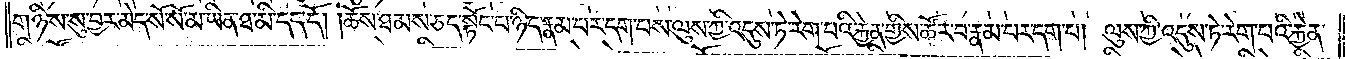གཉིས་སུ་བྱར་མེད་སོ་སོ་མ་ཡིན་ཐ་མི་དད་དོ། །ཆོས་ཐམས་ཅད་སྟོང་པ་ཉིད་རྣམ་པར་དག་པས་ལུས་ཀྱི་འདུས་ཏེ་རེག་པའི་རྐྱེན་གྱིས་ཚོར་བ་རྣམ་པར་དག་པ། ལུས་ཀྱི་འདུས་ཏེ་རེག་པའི་རྐྱེན་
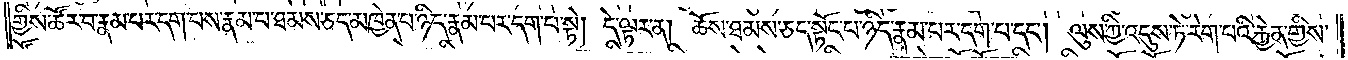གྱིས་ཚོར་བ་རྣམ་པར་དག་པས་རྣམ་པ་ཐམས་ཅད་མཁྱེན་པ་ཉིད་རྣམ་པར་དག་པ་སྟེ། དེ་ལྟར་ན། ཆོས་ཐམས་ཅད་སྟོང་པ་ཉིད་རྣམ་པར་དག་པ་དང༌། ལུས་ཀྱི་འདུས་ཏེ་རེག་པའི་རྐྱེན་གྱིས་
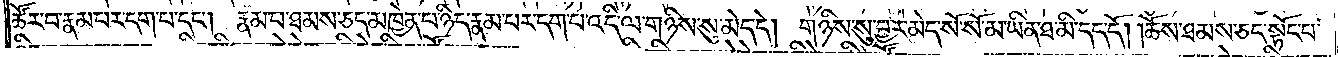ཚོར་བ་རྣམ་པར་དག་པ་དང༌། རྣམ་པ་ཐམས་ཅད་མཁྱེན་པ་ཉིད་རྣམ་པར་དག་པ་འདི་ལ་གཉིས་སུ་མེད་དེ། གཉིས་སུ་བྱར་མེད་སོ་སོ་མ་ཡིན་ཐ་མི་དད་དོ། །ཆོས་ཐམས་ཅད་སྟོང་པ་
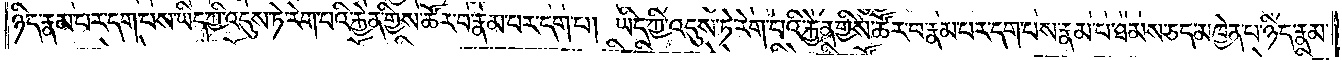ཉིད་རྣམ་པར་དག་པས་ཡིད་ཀྱི་འདུས་ཏེ་རེག་པའི་རྐྱེན་གྱིས་ཚོར་བ་རྣམ་པར་དག་པ། ཡིད་ཀྱི་འདུས་ཏེ་རེག་པའི་རྐྱེན་གྱིས་ཚོར་བ་རྣམ་པར་དག་པས་རྣམ་པ་ཐམས་ཅད་མཁྱེན་པ་ཉིད་རྣམ་
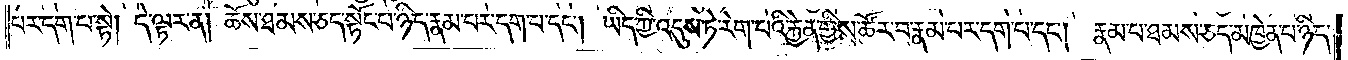པར་དག་པ་སྟེ། དེ་ལྟར་ན། ཆོས་ཐམས་ཅད་སྟོང་པ་ཉིད་རྣམ་པར་དག་པ་དང༌། ཡིད་ཀྱི་འདུས་ཏེ་རེག་པའི་རྐྱེན་གྱིས་ཚོར་བ་རྣམ་པར་དག་པ་དང༌། རྣམ་པ་ཐམས་ཅད་མཁྱེན་པ་ཉིད་
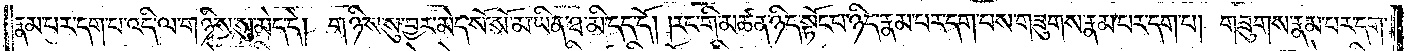རྣམ་པར་དག་པ་འདི་ལ་གཉིས་སུ་མེད་དེ། གཉིས་སུ་བྱར་མེད་སོ་སོ་མ་ཡིན་ཐ་མི་དད་དོ། །རང་གི་མཚན་ཉིད་སྟོང་པ་ཉིད་རྣམ་པར་དག་པས་གཟུགས་རྣམ་པར་དག་པ། གཟུགས་རྣམ་པར་དག་
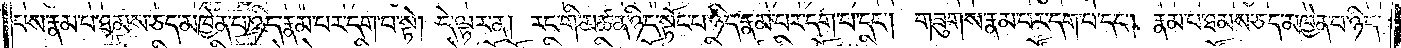པས་རྣམ་པ་ཐམས་ཅད་མཁྱེན་པ་ཉིད་རྣམ་པར་དག་པ་སྟེ། དེ་ལྟར་ན། རང་གི་མཚན་ཉིད་སྟོང་པ་ཉིད་རྣམ་པར་དག་པ་དང༌། གཟུགས་རྣམ་པར་དག་པ་དང༌། རྣམ་པ་ཐམས་ཅད་མཁྱེན་པ་ཉིད་
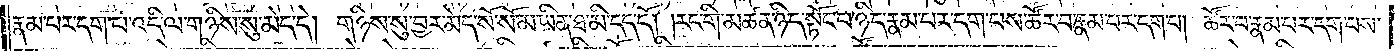རྣམ་པར་དག་པ་འདི་ལ་གཉིས་སུ་མེད་དེ། གཉིས་སུ་བྱར་མེད་སོ་སོ་མ་ཡིན་ཐ་མི་དད་དོ། །རང་གི་མཚན་ཉིད་སྟོང་པ་ཉིད་རྣམ་པར་དག་པས་ཚོར་བ་རྣམ་པར་དག་པ། ཚོར་བ་རྣམ་པར་དག་པས་
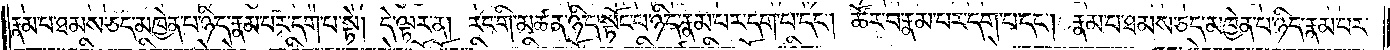རྣམ་པ་ཐམས་ཅད་མཁྱེན་པ་ཉིད་རྣམ་པར་དག་པ་སྟེ། དེ་ལྟར་ན། རང་གི་མཚན་ཉིད་སྟོང་པ་ཉིད་རྣམ་པར་དག་པ་དང༌། ཚོར་བ་རྣམ་པར་དག་པ་དང༌། རྣམ་པ་ཐམས་ཅད་མཁྱེན་པ་ཉིད་རྣམ་པར་
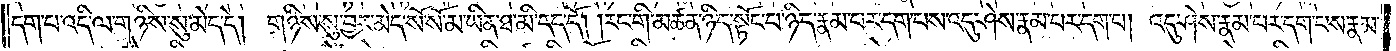དག་པ་འདི་ལ་གཉིས་སུ་མེད་དེ། གཉིས་སུ་བྱར་མེད་སོ་སོ་མ་ཡིན་ཐ་མི་དད་དོ། །རང་གི་མཚན་ཉིད་སྟོང་པ་ཉིད་རྣམ་པར་དག་པས་འདུ་ཤེས་རྣམ་པར་དག་པ། འདུ་ཤེས་རྣམ་པར་དག་པས་རྣམ་
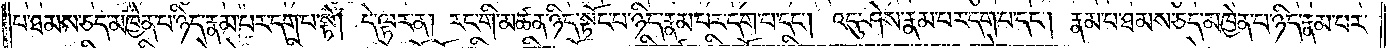པ་ཐམས་ཅད་མཁྱེན་པ་ཉིད་རྣམ་པར་དག་པ་སྟེ། དེ་ལྟར་ན། རང་གི་མཚན་ཉིད་སྟོང་པ་ཉིད་རྣམ་པར་དག་པ་དང༌། འདུ་ཤེས་རྣམ་པར་དག་པ་དང༌། རྣམ་པ་ཐམས་ཅད་མཁྱེན་པ་ཉིད་རྣམ་པར་
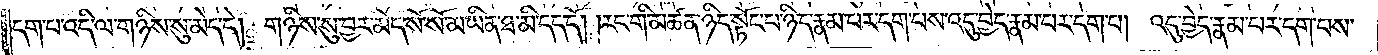དག་པ་འདི་ལ་གཉིས་སུ་མེད་དེ། གཉིས་སུ་བྱར་མེད་སོ་སོ་མ་ཡིན་ཐ་མི་དད་དོ། །རང་གི་མཚན་ཉིད་སྟོང་པ་ཉིད་རྣམ་པར་དག་པས་འདུ་བྱེད་རྣམ་པར་དག་པ། འདུ་བྱེད་རྣམ་པར་དག་པས་
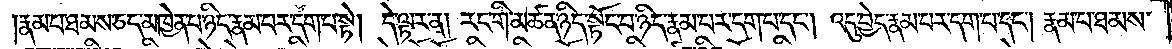རྣམ་པ་ཐམས་ཅད་མཁྱེན་པ་ཉིད་རྣམ་པར་དག་པ་སྟེ། དེ་ལྟར་ན། རང་གི་མཚན་ཉིད་སྟོང་པ་ཉིད་རྣམ་པར་དག་པ་དང༌། འདུ་བྱེད་རྣམ་པར་དག་པ་དང༌། རྣམ་པ་ཐམས་
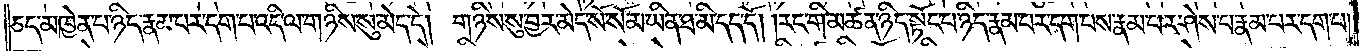ཅད་མཁྱེན་པ་ཉིད་རྣམ་པར་དག་པ་འདི་ལ་གཉིས་སུ་མེད་དེ། གཉིས་སུ་བྱར་མེད་སོ་སོ་མ་ཡིན་ཐ་མི་དད་དོ། །རང་གི་མཚན་ཉིད་སྟོང་པ་ཉིད་རྣམ་པར་དག་པས་རྣམ་པར་ཤེས་པ་རྣམ་པར་དག་པ།
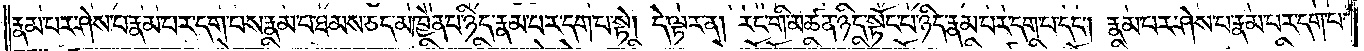རྣམ་པར་ཤེས་པ་རྣམ་པར་དག་པས་རྣམ་པ་ཐམས་ཅད་མཁྱེན་པ་ཉིད་རྣམ་པར་དག་པ་སྟེ། དེ་ལྟར་ན། རང་གི་མཚན་ཉིད་སྟོང་པ་ཉིད་རྣམ་པར་དག་པ་དང༌། རྣམ་པར་ཤེས་པ་རྣམ་པར་དག་པ་
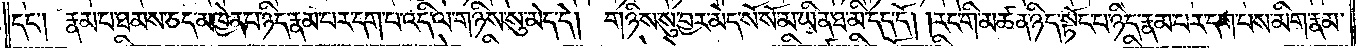དང༌། རྣམ་པ་ཐམས་ཅད་མཁྱེན་པ་ཉིད་རྣམ་པར་དག་པ་འདི་ལ་གཉིས་སུ་མེད་དེ། གཉིས་སུ་བྱར་མེད་སོ་སོ་མ་ཡིན་ཐ་མི་དད་དོ། །རང་གི་མཚན་ཉིད་སྟོང་པ་ཉིད་རྣམ་པར་དག་པས་མིག་རྣམ་
